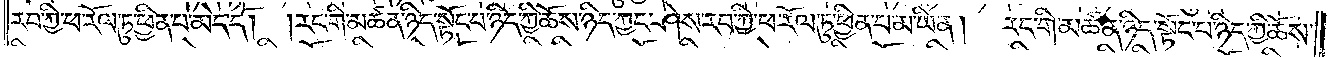རབ་ཀྱི་ཕ་རོལ་ཏུ་ཕྱིན་པ་མེད་དོ། །རང་གི་མཚན་ཉིད་སྟོང་པ་ཉིད་ཀྱི་ཆོས་ཉིད་ཀྱང་ཤེས་རབ་ཀྱི་ཕ་རོལ་ཏུ་ཕྱིན་པ་མ་ཡིན། རང་གི་མཚན་ཉིད་སྟོང་པ་ཉིད་ཀྱི་ཆོས་
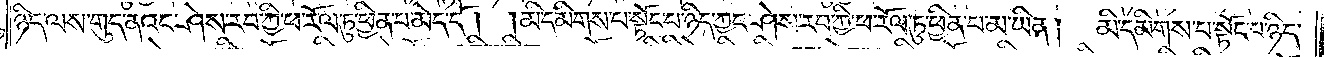ཉིད་ལས་གུད་ནའང་ཤེས་རབ་ཀྱི་ཕ་རོལ་ཏུ་ཕྱིན་པ་མེད་དོ། །མི་དམིགས་པ་སྟོང་པ་ཉིད་ཀྱང་ཤེས་རབ་ཀྱི་ཕ་རོལ་ཏུ་ཕྱིན་པ་མ་ཡིན། མི་དམིགས་པ་སྟོང་པ་ཉིད་
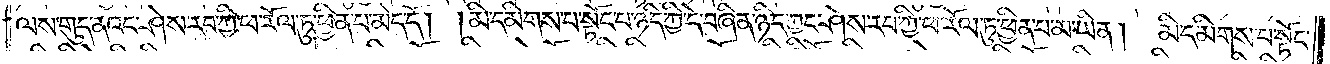ལས་གུད་ནའང་ཤེས་རབ་ཀྱི་ཕ་རོལ་ཏུ་ཕྱིན་པ་མེད་དོ། །མི་དམིགས་པ་སྟོང་པ་ཉིད་ཀྱི་དེ་བཞིན་ཉིད་ཀྱང་ཤེས་རབ་ཀྱི་ཕ་རོལ་ཏུ་ཕྱིན་པ་མ་ཡིན། མི་དམིགས་པ་སྟོང་
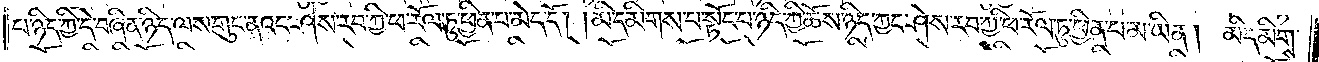པ་ཉིད་ཀྱི་དེ་བཞིན་ཉིད་ལས་གུད་ནའང་ཤེས་རབ་ཀྱི་ཕ་རོལ་ཏུ་ཕྱིན་པ་མེད་དོ། །མི་དམིགས་པ་སྟོང་པ་ཉིད་ཀྱི་ཆོས་ཉིད་ཀྱང་ཤེས་རབ་ཀྱི་ཕ་རོལ་ཏུ་ཕྱིན་པ་མ་ཡིན། མི་དམིགས་
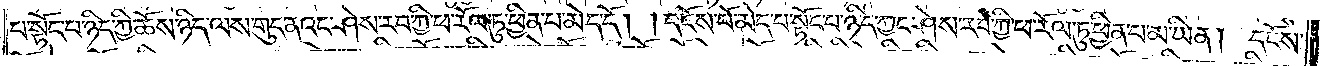པ་སྟོང་པ་ཉིད་ཀྱི་ཆོས་ཉིད་ལས་གུད་ནའང་ཤེས་རབ་ཀྱི་ཕ་རོལ་ཏུ་ཕྱིན་པ་མེད་དོ། །དངོས་པོ་མེད་པ་སྟོང་པ་ཉིད་ཀྱང་ཤེས་རབ་ཀྱི་ཕ་རོལ་ཏུ་ཕྱིན་པ་མ་ཡིན། དངོས་
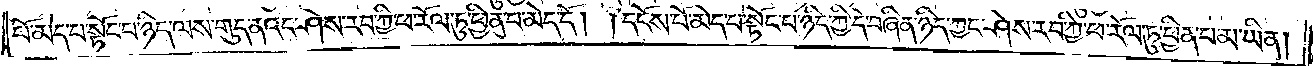པོ་མེད་པ་སྟོང་པ་ཉིད་ལས་གུད་ནའང་ཤེས་རབ་ཀྱི་ཕ་རོལ་ཏུ་ཕྱིན་པ་མེད་དོ། །དངོས་པོ་མེད་པ་སྟོང་པ་ཉིད་ཀྱི་དེ་བཞིན་ཉིད་ཀྱང་ཤེས་རབ་ཀྱི་ཕ་རོལ་ཏུ་ཕྱིན་པ་མ་ཡིན།
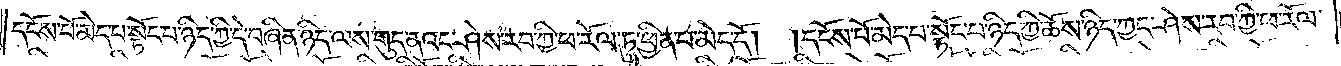དངོས་པོ་མེད་པ་སྟོང་པ་ཉིད་ཀྱི་དེ་བཞིན་ཉིད་ལས་གུད་ནའང་ཤེས་རབ་ཀྱི་ཕ་རོལ་ཏུ་ཕྱིན་པ་མེད་དོ། །དངོས་པོ་མེད་པ་སྟོང་པ་ཉིད་ཀྱི་ཆོས་ཉིད་ཀྱང་ཤེས་རབ་ཀྱི་ཕ་རོལ་
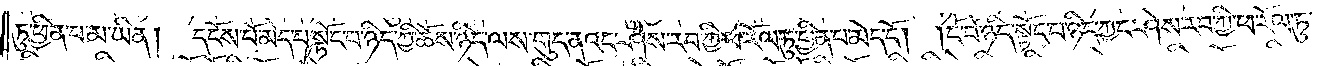ཏུ་ཕྱིན་པ་མ་ཡིན། དངོས་པོ་མེད་པ་སྟོང་པ་ཉིད་ཀྱི་ཆོས་ཉིད་ལས་གུད་ནའང་ཤེས་རབ་ཀྱི་ཕ་རོལ་ཏུ་ཕྱིན་པ་མེད་དོ། །ངོ་བོ་ཉིད་སྟོང་པ་ཉིད་ཀྱང་ཤེས་རབ་ཀྱི་ཕ་རོལ་ཏུ་
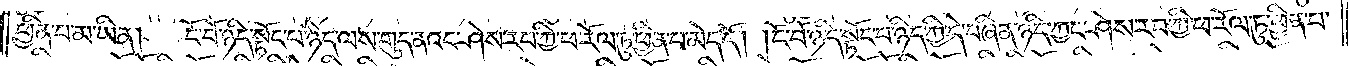ཕྱིན་པ་མ་ཡིན། ངོ་བོ་ཉིད་སྟོང་པ་ཉིད་ལས་གུད་ནའང་ཤེས་རབ་ཀྱི་ཕ་རོལ་ཏུ་ཕྱིན་པ་མེད་དོ། །ངོ་བོ་ཉིད་སྟོང་པ་ཉིད་ཀྱི་དེ་བཞིན་ཉིད་ཀྱང་ཤེས་རབ་ཀྱི་ཕ་རོལ་ཏུ་ཕྱིན་པ་
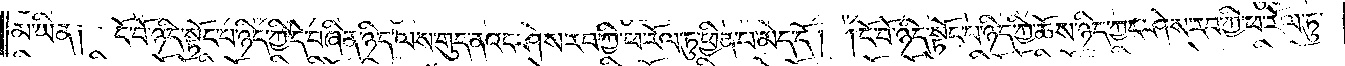མ་ཡིན། ངོ་བོ་ཉིད་སྟོང་པ་ཉིད་ཀྱི་དེ་བཞིན་ཉིད་ལས་གུད་ནའང་ཤེས་རབ་ཀྱི་ཕ་རོལ་ཏུ་ཕྱིན་པ་མེད་དོ། །ངོ་བོ་ཉིད་སྟོང་པ་ཉིད་ཀྱི་ཆོས་ཉིད་ཀྱང་ཤེས་རབ་ཀྱི་ཕ་རོལ་ཏུ་
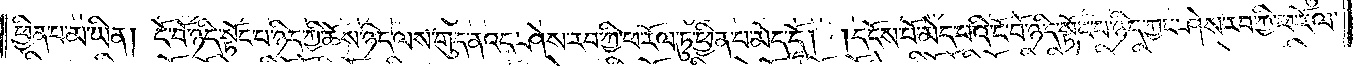ཕྱིན་པ་མ་ཡིན། ངོ་བོ་ཉིད་སྟོང་པ་ཉིད་ཀྱི་ཆོས་ཉིད་ལས་གུད་ནའང་ཤེས་རབ་ཀྱི་ཕ་རོལ་ཏུ་ཕྱིན་པ་མེད་དོ། །དངོས་པོ་མེད་པའི་ངོ་བོ་ཉིད་སྟོང་པ་ཉིད་ཀྱང་ཤེས་རབ་ཀྱི་ཕ་རོལ་
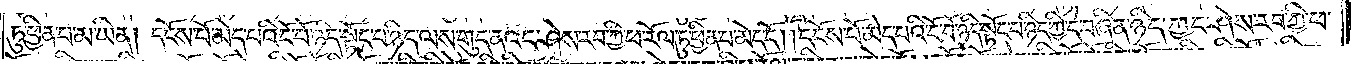ཏུ་ཕྱིན་པ་མ་ཡིན། དངོས་པོ་མེད་པའི་ངོ་བོ་ཉིད་སྟོང་པ་ཉིད་ལས་གུད་ནའང་ཤེས་རབ་ཀྱི་ཕ་རོལ་ཏུ་ཕྱིན་པ་མེད་དོ། །དངོས་པོ་མེད་པའི་ངོ་བོ་ཉིད་སྟོང་པ་ཉིད་ཀྱི་དེ་བཞིན་ཉིད་ཀྱང་ཤེས་རབ་ཀྱི་ཕ་
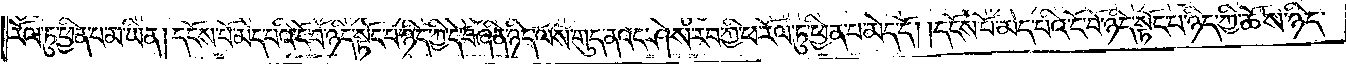རོལ་ཏུ་ཕྱིན་པ་མ་ཡིན། དངོས་པོ་མེད་པའི་ངོ་བོ་ཉིད་སྟོང་པ་ཉིད་ཀྱི་དེ་བཞིན་ཉིད་ལས་གུད་ནའང་ཤེས་རབ་ཀྱི་ཕ་རོལ་ཏུ་ཕྱིན་པ་མེད་དོ། །དངོས་པོ་མེད་པའི་ངོ་བོ་ཉིད་སྟོང་པ་ཉིད་ཀྱི་ཆོས་ཉིད་
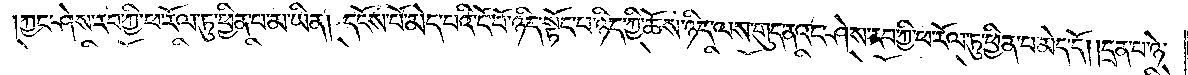ཀྱང་ཤེས་རབ་ཀྱི་ཕ་རོལ་ཏུ་ཕྱིན་པ་མ་ཡིན། དངོས་པོ་མེད་པའི་ངོ་བོ་ཉིད་སྟོང་པ་ཉིད་ཀྱི་ཆོས་ཉིད་ལས་གུད་ནའང་ཤེས་རབ་ཀྱི་ཕ་རོལ་ཏུ་ཕྱིན་པ་མེད་དོ། །དྲན་པ་ཉེ་
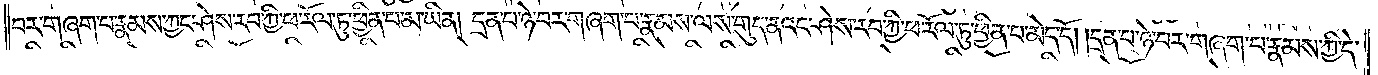བར་གཞག་པ་རྣམས་ཀྱང་ཤེས་རབ་ཀྱི་ཕ་རོལ་ཏུ་ཕྱིན་པ་མ་ཡིན། དྲན་པ་ཉེ་བར་བཞག་པ་རྣམས་ལས་གུད་ནའང་ཤེས་རབ་ཀྱི་ཕ་རོལ་ཏུ་ཕྱིན་པ་མེད་དོ། །དྲན་པ་ཉེ་བར་བཞག་པ་རྣམས་ཀྱི་དེ་
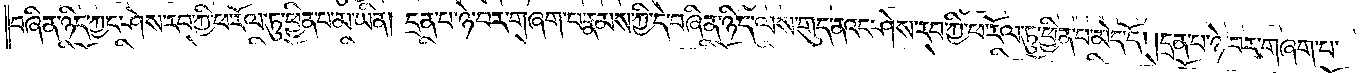བཞིན་ཉིད་ཀྱང་ཤེས་རབ་ཀྱི་ཕ་རོལ་ཏུ་ཕྱིན་པ་མ་ཡིན། དྲན་པ་ཉེ་བར་བཞག་པ་རྣམས་ཀྱི་དེ་བཞིན་ཉིད་ལས་གུད་ནའང་ཤེས་རབ་ཀྱི་ཕ་རོལ་ཏུ་ཕྱིན་པ་མེད་དོ། །དྲན་པ་ཉེ་བར་གཞག་པ་
